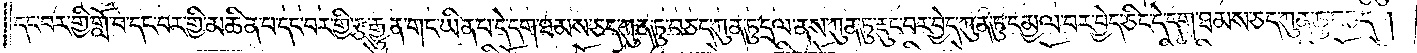དང་བར་གྱི་གློ་བ་དང་བར་གྱི་མཆིན་པ་དང་བར་གྱི་རྩ་རྒྱུན་གང་ཡིན་པ་དེ་དག་ཐམས་ཅད་ཀུན་ཏུ་བཅད་ཀུན་ཏུ་དྲལ་ནས་ཀུན་ཏུ་རྡུང་བར་བྱེད་ཀུན་ཏུ་དམྱལ་བར་བྱེད་ཅིང་དེ་དག་ཐམས་ཅད་ཀུན་ཏུ་བཅད།
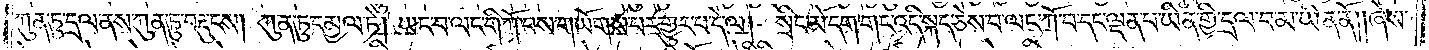ཀུན་ཏུ་དྲལ་ནས་ཀུན་ཏུ་བརྡུངས། ཀུན་ཏུ་དམྱལ་ཏེ། ཡང་བ་ལང་གི་ཀོ་བས་གཡོགས་པར་གྱུར་པ་དེ་ལ། སྲིང་མོ་དག་གང་འདི་སྐད་ཅེས་བ་ལང་ཀོ་བ་དང་ལྡན་པ་ཡིན་གྱི་དྲལ་བ་མ་ཡིན་ནོ༎ཞེས་
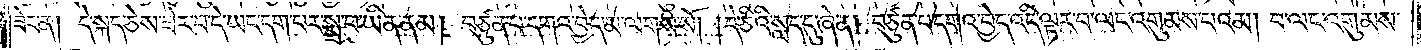ཟེར་ན། དེ་སྐད་ཅེས་ཟེར་བ་དེ་ཡང་དག་པར་སྨྲ་བ་ཡིན་ནམ། བཙུན་པ་དགའ་བྱེད་མ་ལགས་སོ། །དེ་ཅིའི་སླད་དུ་ཞེ་ན། བཙུན་པ་དགའ་བྱེད་འདི་ལྟར་བ་ལང་འགུམས་པའམ། བ་ལང་འགུམས་
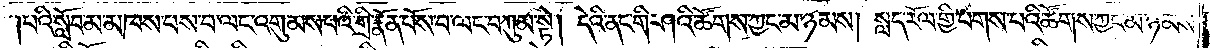པའི་སློབ་མ་མཁས་པས་བ་ལང་འགུམས་པའི་གྲི་རྣོན་པོས་བ་ལང་བཀུམ་སྟེ། དེའི་ནང་གི་ཤའི་ཚོགས་ཀྱང་མ་ཉམས། སླད་རོལ་གྱི་པགས་པའི་ཚོགས་ཀྱང་མ་ཉམས་
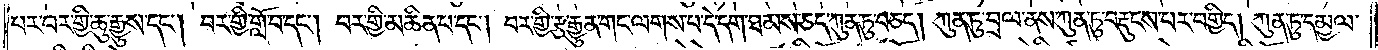པར་བར་གྱི་ཆུ་རྒྱུས་དང༌། བར་གྱི་གློ་བ་དང༌། བར་གྱི་མཆིན་པ་དང༌། བར་གྱི་རྩ་རྒྱུན་གང་ལགས་པ་དེ་དག་ཐམས་ཅད་ཀུན་ཏུ་བཅད། ཀུན་ཏུ་བྲལ་ནས་ཀུན་ཏུ་བརྡུངས་པར་བགྱིད། ཀུན་ཏུ་དམྱལ་
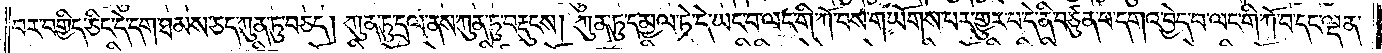བར་བགྱིད་ཅིང་དེ་དག་ཐམས་ཅད་ཀུན་ཏུ་བཅད། ཀུན་ཏུ་དྲལ་ནས་ཀུན་ཏུ་བརྡུངས། ཀུན་ཏུ་དམྱལ་ཏེ་དེ་ཡང་བ་ལང་གི་ཀོ་བས་གཡོགས་པར་གྱུར་པ་དེ་ནི་བཙུན་པ་དགའ་བྱེད་བ་ལང་གི་ཀོ་བ་དང་ལྡན་
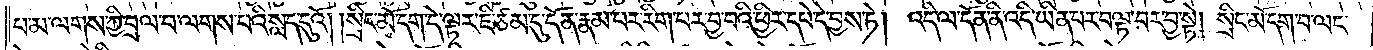པ་མ་ལགས་ཀྱི་བྲལ་བ་ལགས་པའི་སླད་དུའོ། །སྲིང་མོ་དག་དེ་ལྟར་ཇི་ཙམ་དུ་དོན་རྣམ་པར་རིག་པར་བྱ་བའི་ཕྱིར་དཔེ་དེ་བྱས་ཏེ། འདི་ལ་དོན་ནི་འདི་ཡིན་པར་བལྟ་བར་བྱ་སྟེ། སྲིང་མོ་དག་བ་ལང་
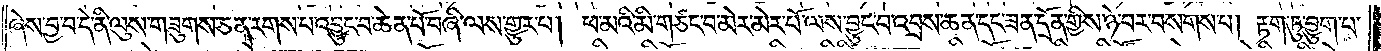ཞེས་བྱ་བ་དེ་ནི་ལུས་གཟུགས་ཅན་རགས་པ་འབྱུང་བ་ཆེན་པོ་བཞི་ལས་གྱུར་པ། ཕ་མའི་མི་གཙང་བ་མེར་མེར་པོ་ལས་བྱུང་བ་འབྲས་ཆན་དང་ཟན་དྲོན་གྱིས་ཉེ་བར་བསགས་པ། རྟག་ཏུ་བྱུག་པ་
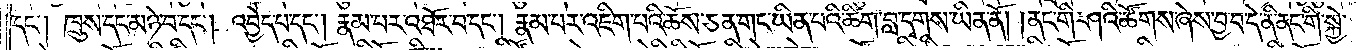དང༌། ཁྲུས་དང་མཉེ་བ་དང༌། འབྱེད་པ་དང༌། རྣམ་པར་འཐོར་བ་དང༌། རྣམ་པར་འཇིག་པའི་ཆོས་ཅན་གང་ཡིན་པའི་ཚིག་བླ་དྭགས་ཡིན་ནོ། །ནང་གི་ཤའི་ཚོགས་ཞེས་བྱ་བ་དེ་ནི་ནང་གི་སྐྱེ་
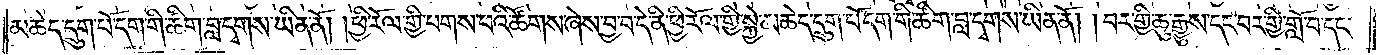མཆེད་དྲུག་པོ་དག་གི་ཚིག་བླ་དྭགས་ཡིན་ནོ། །ཕྱི་རོལ་གྱི་པགས་པའི་ཚོགས་ཞེས་བྱ་བ་དེ་ནི་ཕྱི་རོལ་གྱི་སྐྱེ་མཆེད་དྲུག་པོ་དག་གི་ཚིག་བླ་དྭགས་ཡིན་ནོ། །བར་གྱི་ཆུ་རྒྱུས་དང་བར་གྱི་གློ་བ་དང་
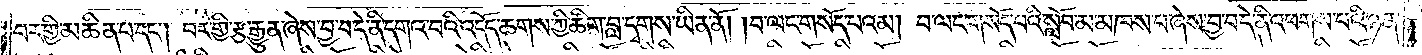བར་གྱི་མཆིན་པ་དང༌། བར་གྱི་རྩ་རྒྱུན་ཞེས་བྱ་བ་དེ་ནི་དགའ་བའི་འདོད་ཆགས་ཀྱི་ཚིག་བླ་དྭགས་ཡིན་ནོ། །བ་ལང་གསོད་པའམ། བ་ལང་གསོད་པའི་སློབ་མ་མཁས་པ་ཞེས་བྱ་བ་དེ་ནི་འཕགས་པའི་ཉན་
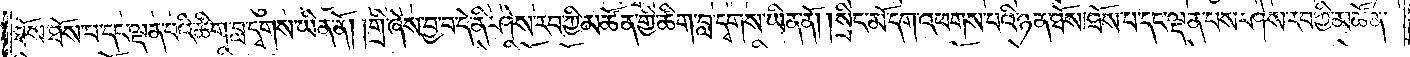ཐོས་ཐོས་པ་དང་ལྡན་པའི་ཚིག་བླ་དྭགས་ཡིན་ནོ། །གྲི་ཞེས་བྱ་བ་དེ་ནི་ཤེས་རབ་ཀྱི་མཚོན་གྱི་ཚིག་བླ་དྭགས་ཡིན་ནོ། །སྲིང་མོ་དག་འཕགས་པའི་ཉན་ཐོས་ཐོས་པ་དང་ལྡན་པས་ཤེས་རབ་ཀྱི་མཚོན་
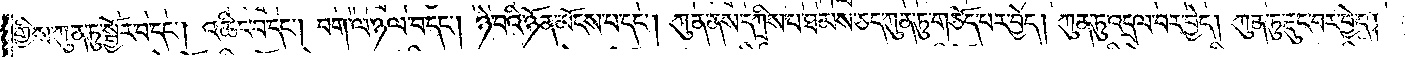གྱིས་ཀུན་ཏུ་སྦྱོར་བ་དང༌། འཆིང་བ་དང༌། བག་ལ་ཉལ་བ་དང༌། ཉེ་བའི་ཉོན་མོངས་པ་དང༌། ཀུན་ནས་དཀྲིས་པ་ཐམས་ཅད་ཀུན་ཏུ་གཅོད་པར་བྱེད། ཀུན་ཏུ་འདྲལ་བར་བྱེད། ཀུན་ཏུ་རྡུང་བར་བྱེད།
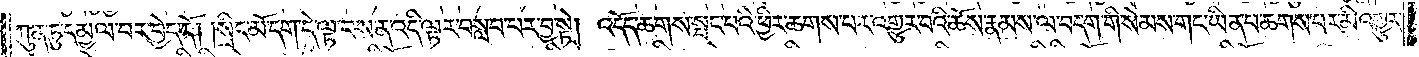ཀུན་ཏུ་དམྱལ་བར་བྱེད་དོ། །སྲིང་མོ་དག་དེ་ལྟ་བས་ན་འདི་ལྟར་བསླབ་པར་བྱ་སྟེ། འདོད་ཆགས་སྤང་བའི་ཕྱིར་ཆགས་པར་འགྱུར་བའི་ཆོས་རྣམས་ལ་བདག་གི་སེམས་གང་ཡིན་པ་ཆགས་པར་མི་འགྱུར་
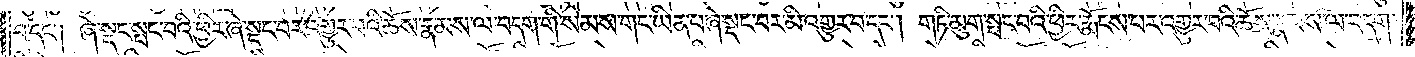བ་དང༌། ཞེ་སྡང་སྤང་བའི་ཕྱིར་ཞེ་སྡང་བར་འགྱུར་བའི་ཆོས་རྣམས་ལ་བདག་གི་སེམས་གང་ཡིན་པ་ཞེ་སྡང་བར་མི་འགྱུར་བ་དང༌། གཏི་མུག་སྤང་བའི་ཕྱིར་རྨོངས་པར་འགྱུར་བའི་ཆོས་རྣམས་ལ་བདག་
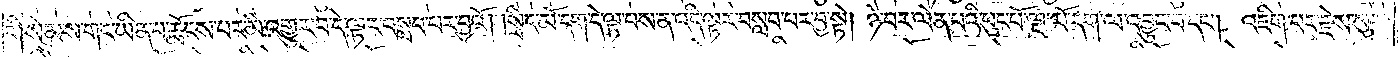གི་སེམས་གང་ཡིན་པ་རྨོངས་པར་མི་འགྱུར་བ་དེ་ལྟར་བསླབ་པར་བྱའོ། །སྲིང་མོ་དག་དེ་ལྟ་བས་ན་འདི་ལྟར་བསླབ་པར་བྱ་སྟེ། ཉེ་བར་ལེན་པའི་ཕུང་པོ་ལྔ་པོ་དག་ལ་འབྱུང་བ་དང༌། འཇིག་པར་རྗེས་སུ་
